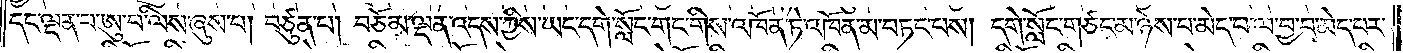དང་ལྡན་པ་ཨུ་པ་ལིས་ཞུས་པ། བཙུན་པ། བཅོམ་ལྡན་འདས་ཀྱིས་ཡང་དགེ་སློང་གང་གིས་འཁོན་ཏེ་འཁོན་མ་བཏང་པས། དགེ་སློང་གཙང་མ་ཉེས་པ་མེད་པ་ལ་བྱ་བ་མེད་པར་
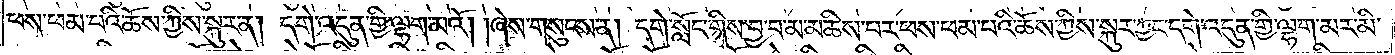ཕས་ཕམ་པའི་ཆོས་ཀྱིས་སྐུར་ན། དགེ་འདུན་གྱི་ལྷག་མའོ། །ཞེས་གསུངས་ན། དགེ་སློང་གིས་བྱ་བ་མ་མཆིས་པར་ཕས་ཕམ་པའི་ཆོས་ཀྱིས་སྐུར་ཀྱང་དགེ་འདུན་གྱི་ལྷག་མར་མི་
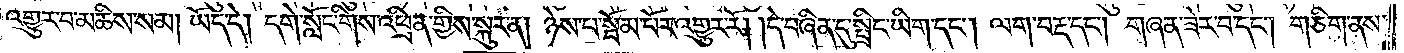འགྱུར་བ་མཆིས་སམ། ཡོད་དེ། དགེ་སློང་གིས་འཕྲིན་གྱིས་སྐུར་ན། ཉེས་པ་སྦོམ་པོར་འགྱུར་རོ། །དེ་བཞིན་དུ་སྤྲིང་ཡིག་དང༌། ལག་བརྡ་དང༌། གཞན་ཟེར་བ་དང༌། གཅིག་ནས་
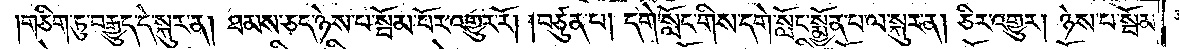གཅིག་ཏུ་བརྒྱུད་དེ་སྐུར་ན། ཐམས་ཅད་ཉེས་པ་སྦོམ་པོར་འགྱུར་རོ། །བཙུན་པ། དགེ་སློང་གིས་དགེ་སློང་སྨྱོན་པ་ལ་སྐུར་ན། ཅིར་འགྱུར། ཉེས་པ་སྦོམ་
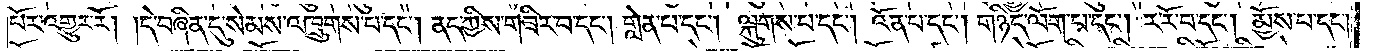པོར་འགྱུར་རོ། །དེ་བཞིན་དུ་སེམས་འཁྲུགས་པ་དང༌། ནད་ཀྱིས་གཟིར་བ་དང༌། གླེན་པ་དང༌། ལྐུགས་པ་དང༌། འོན་པ་དང༌། གཉིད་ལོག་པ་དང༌། ར་རོ་བ་དང༌། མྱོས་པ་དང༌།
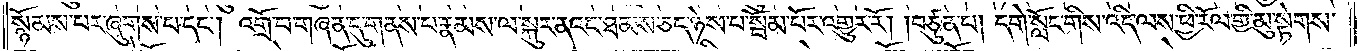སྙོམས་པར་ཞུགས་པ་དང༌། འགྲོ་བ་གཞན་དུ་གནས་པ་རྣམས་ལ་སྐུར་ནའང་ཐམས་ཅད་ཉེས་པ་སྦོམ་པོར་འགྱུར་རོ། །བཙུན་པ། དགེ་སློང་གིས་འདི་ལས་ཕྱི་རོལ་གྱི་མུ་སྟེགས་
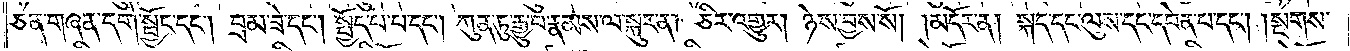ཅན་གཞན་དགེ་སྦྱོང་དང༌། བྲམ་ཟེ་དང༌། སྤྱོད་པ་པ་དང༌། ཀུན་ཏུ་རྒྱུ་བ་རྣམས་ལ་སྐུར་ན། ཅིར་འགྱུར། ཉེས་བྱས་སོ། །མདོར་ན། སྐད་དང་ལུས་དང་དབེན་པ་དང༌། །སྔགས་
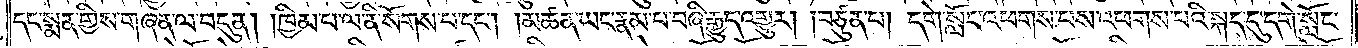དང་སྨན་གྱིས་གཞན་ལ་བདུན། །ཁྱིམ་པ་ལ་ནི་སོགས་པ་དང༌། །མཚན་ཡང་རྣམ་པ་བཞི་རྒྱུད་འགྱུར། །བཙུན་པ། དགེ་སློང་འཕགས་པས་འཕགས་པའི་སྐད་དུ་དགེ་སློང་
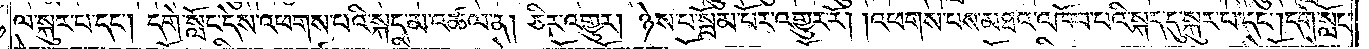ལ་སྐུར་པ་དང༌། དགེ་སློང་དེས་འཕགས་པའི་སྐད་མ་འཚལ་ན། ཅིར་འགྱུར། ཉེས་པ་སྦོམ་པོར་འགྱུར་རོ། །འཕགས་པས་མཐའ་འཁོབ་པའི་སྐད་དུ་སྐུར་བ་དང༌། དགེ་སློང་
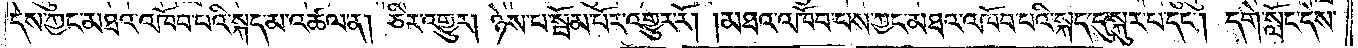དེས་ཀྱང་མཐའ་འཁོབ་པའི་སྐད་མ་འཚལ་ན། ཅིར་འགྱུར། ཉེས་པ་སྦོམ་པོར་འགྱུར་རོ། །མཐའ་འཁོབ་པས་ཀྱང་མཐའ་འཁོབ་པའི་སྐད་དུ་སྐུར་པ་དང༌། དགེ་སློང་དེས་
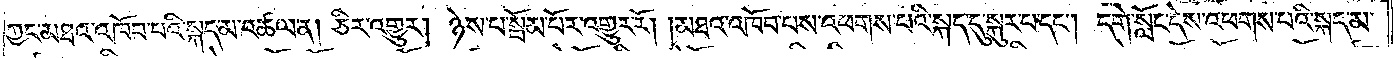ཀྱང་མཐའ་འཁོབ་པའི་སྐད་མ་འཚལ་ན། ཅིར་འགྱུར། ཉེས་པ་སྦོམ་པོར་འགྱུར་རོ། །མཐའ་འཁོབ་པས་འཕགས་པའི་སྐད་དུ་སྐུར་པ་དང༌། དགེ་སློང་དེས་འཕགས་པའི་སྐད་མ་
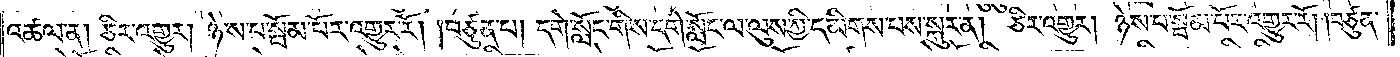འཚལ་ན། ཅིར་འགྱུར། ཉེས་པ་སྦོམ་པོར་འགྱུར་རོ། །བཙུན་པ། དགེ་སློང་གིས་དགེ་སློང་ལ་ལུས་ཀྱི་དམིགས་པས་སྐུར་ན། ཅིར་འགྱུར། ཉེས་པ་སྦོམ་པོར་འགྱུར་རོ། །བཙུན་
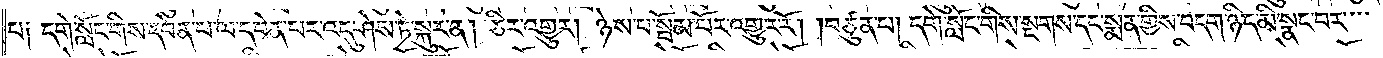པ༑ དགེ་སློང་གིས་དབེན་པ་ལ་དབེན་པར་འདུ་ཤེས་ཏེ་སྐུར་ན། ཅིར་འགྱུར། ཉེས་པ་སྦོམ་པོར་འགྱུར་རོ། །བཙུན་པ། དགེ་སློང་གིས་སྔགས་དང་སྨན་གྱིས་བདག་ཉིད་མི་སྣང་བར་
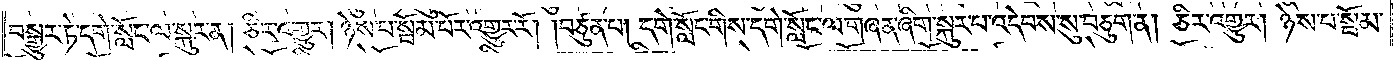བསྒྱུར་ཏེ་དགེ་སློང་ལ་སྐུར་ན། ཅིར་འགྱུར། ཉེས་པ་སྦོམ་པོར་འགྱུར་རོ། །བཙུན་པ། དགེ་སློང་གིས་དགེ་སློང་ལ་གཞན་ཞིག་སྐུར་པ་འདེབས་སུ་བཅུག་ན། ཅིར་འགྱུར། ཉེས་པ་སྦོམ་
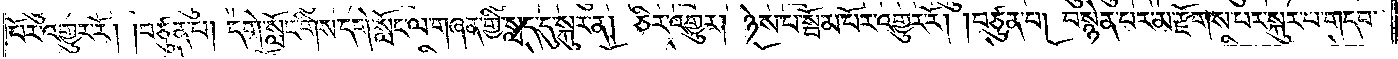པོར་འགྱུར་རོ། །བཙུན་པ། དགེ་སློང་གིས་དགེ་སློང་ལ་གཞན་གྱི་སླད་དུ་སྐུར་ན། ཅིར་འགྱུར། ཉེས་པ་སྦོམ་པོར་འགྱུར་རོ། །བཙུན་པ། བསྙེན་པར་མ་རྫོགས་པར་སྐུར་པ་གདབ་
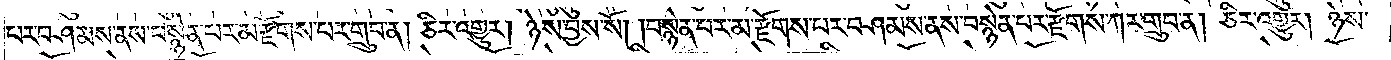པར་བཤམས་ནས་བསྙེན་པར་མ་རྫོགས་པར་གྲུབ་ན། ཅིར་འགྱུར། ཉེས་བྱས་སོ། །བསྙེན་པར་མ་རྫོགས་པར་བཤམས་ནས་བསྙེན་པར་རྫོགས་ཀར་གྲུབ་ན། ཅིར་འགྱུར། ཉེས་
